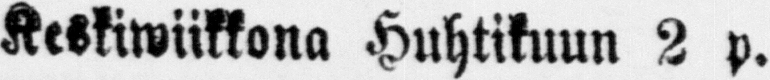Keskiwiikkona Huhtikuun 2 p.
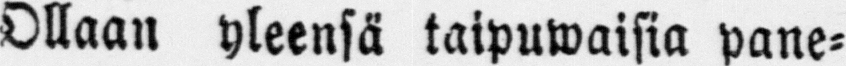Ollaan yleensä taipuwaisia pane-
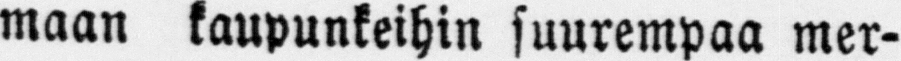maan kaupunkeihin suurempaa mer-
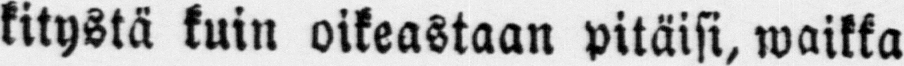kitystä kuin oikeastaan pitäisi, waikka
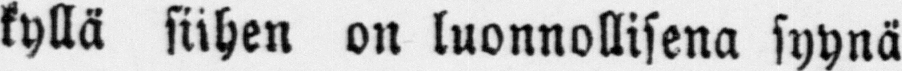kyllä siihen on luonnollisena syynä
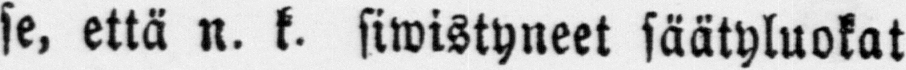se, että n. k. siwistyneet säätyluokat
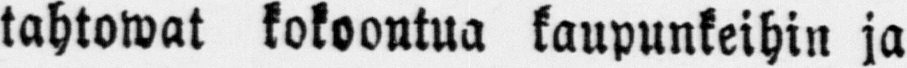tahtowat kokoontua kaupunkeihin ja
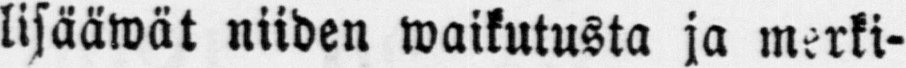lisääwät niiden waikutusta ja merki-
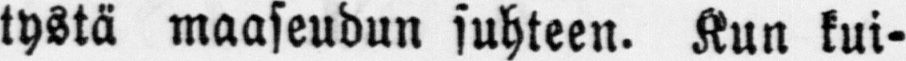tystä maaseudun suhteen. Kun kui-
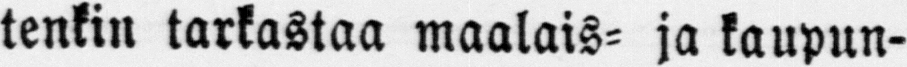tenkin tarkastaa maalais- ja kaupun-
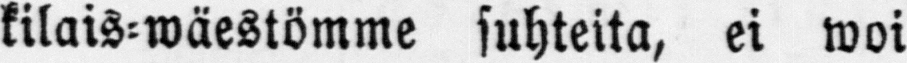kilais-wäestömme suhteita, ei woi
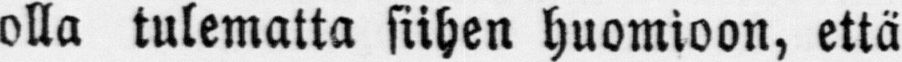olla tulematta siihen huomioon, että
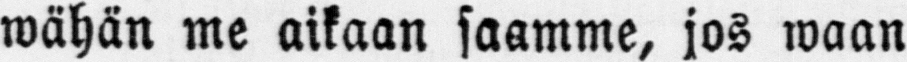wähän me aikaan saamme, jos waan
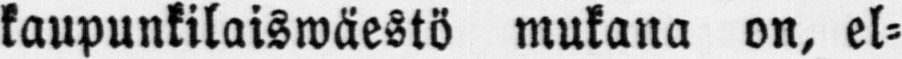kaupunkilaiswäestö mukana on, el-
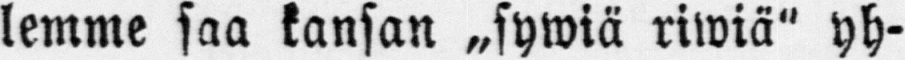lemme saa kansan „sywiä riwiä" yh-
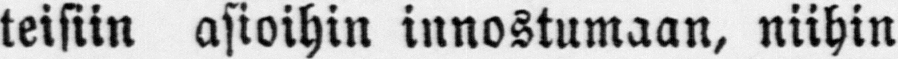teisiin asioihin innostumaan, niihin
